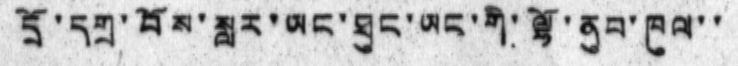དྲོ་དགྲ་བོས་སླར་ཡང་ཐུང་ཡང་གི་ལྷོ་ནུབ་ཁུལ་་
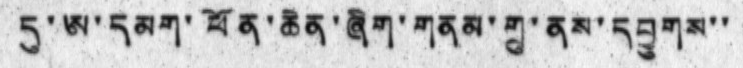དུ་ཨ་དམག་ཕོན་ཆེན་ཞིག་གནམ་གྲུ་ནས་དབྱུགས་་
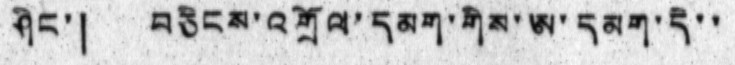ཤིང་། བཅིངས་འགྲོལ་དམག་གིས་ཨ་དམག་དེ་་
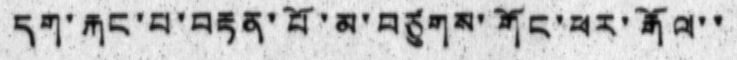དག་རྐང་པ་བརྟན་པོ་མ་བཙུགས་གོང་ཕར་རྒོལ་་
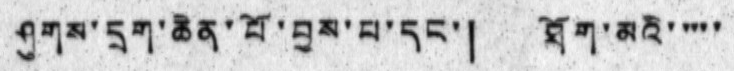ཤུགས་དྲག་ཆེན་པོ་བྱས་པ་དང་། ཐོག་མའི་་་་་
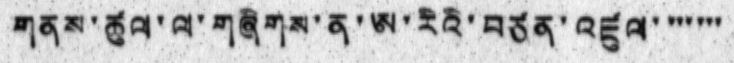གནས་ཚུལ་ལ་གཞིགས་ན་ཨ་རིའི་བཙན་འཛུལ་ ་་་་་་
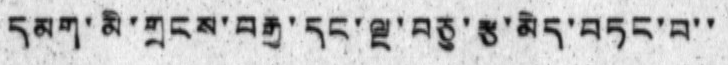དམག་མི་གྲངས་བརྒྱ་དང་ལྔ་བཅུ་རྩ་མེད་བཏང་བ་་
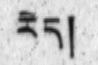རེད།
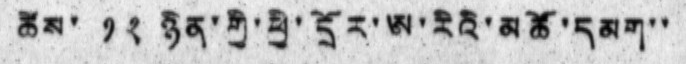ཚེས་ ༡༢ ཉིན་གྱི་ཕྱི་དྲོར་ཨ་རིའི་མཚོ་དམག་་
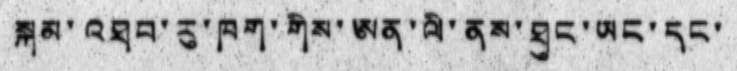སྐམ་འཐབ་རུ་ཁག་གིས་ཨན་ལི་ནས་ཐུང་ཡང་དང་
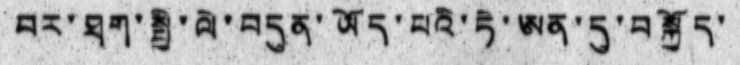བར་ཐག་སྤྱི་ལེ་བདུན་ཡོད་པའི་ཏེ་ཨན་དུ་བསྐྱོད་
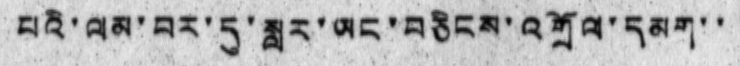པའི་ལམ་བར་དུ་སླར་ཡང་བཅིངས་འགྲོལ་དམག་་
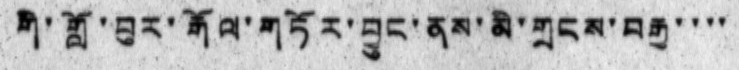གི་གློ་བུར་རྒོལ་གཏོར་བྱུང་ནས་མི་གྲངས་བརྒྱ་་་་
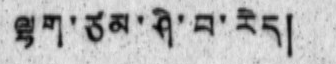ལྷག་ཙམ་ཤི་བ་རེད།
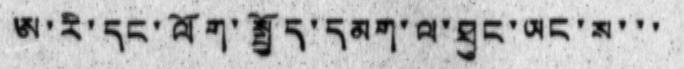ཨ་རི་དང་ལོག་སྤྱོད་དམག་ལ་ཐུང་ཡང་ས་་་
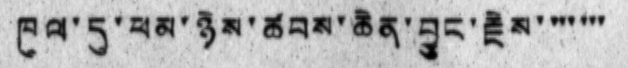ཁུལ་དུ་ཕམ་ཉེས་ཚབས་ཆེན་བྱུང་རྗེས་ ་་་་་་
